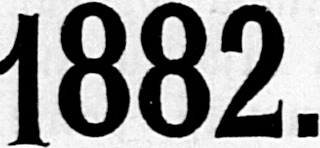1882.
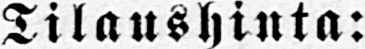Tilaushinta:
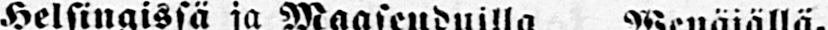Helsingissä ja Maaseuduilla Wenäjällä.
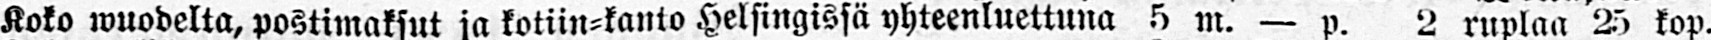Koko wuodelta, postimaksut ja kotiin-kanto Helsingissä yhteenluettuna 5 m. — p. rupllaa 25 kop.
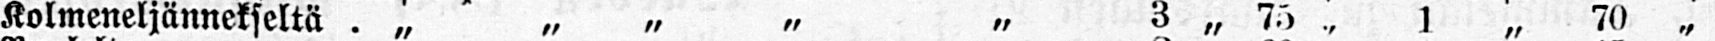Kolmeneljännekseltä . „ „ „ „ „ 3 „ 75 „ 1„ 70„
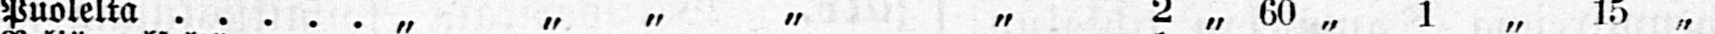Puolelta „ „ „ „ „ 2 „ 60 „ 1 „ 15 „
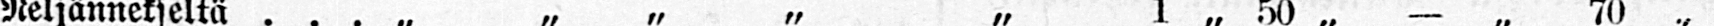Neljännekseltä „ „ „ „ „ 1 „ 50 „ — „ 70 „
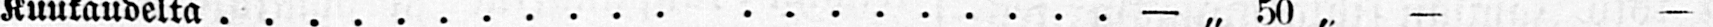Kuukaudelta — „ 50 „ — —
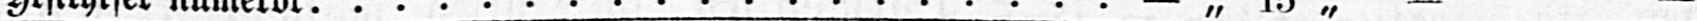Yksityiset numerot. — „ 15 „ — —
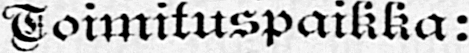Toimituspaikka:
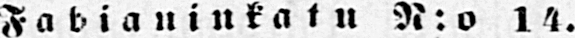Fabianinkatu N:o 14.
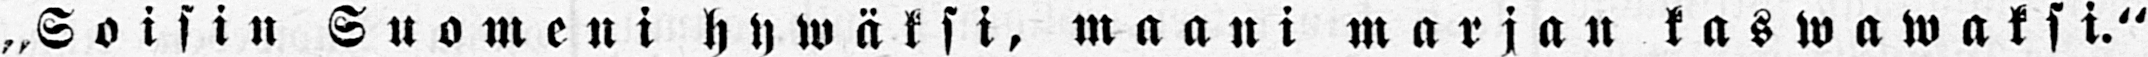„Soisin Suomeni h ywäksi, maani marjan kaswawaksi."
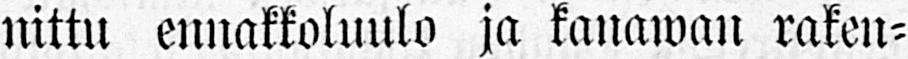nittu ennakkoluulo ja kanawan raken-
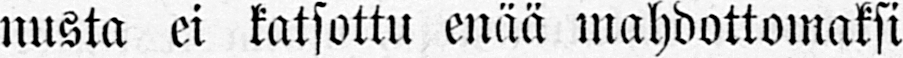nusta ei katsottu enää mahdottomaksi
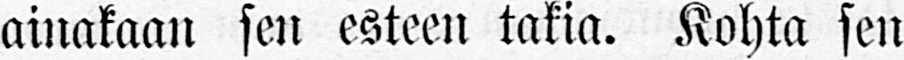ainakaan sen esteen takia. Kohta sen
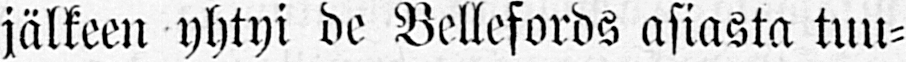jälkeen yhtyi de Bellefords asiasta tuu-
